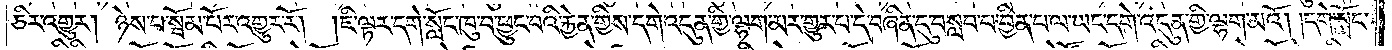ཅིར་འགྱུར། ཉེས་པ་སྦོམ་པོར་འགྱུར་རོ། །ཇི་ལྟར་དགེ་སློང་ཁུ་བ་ཕྱུང་བའི་རྐྱེན་གྱིས་དགེ་འདུན་གྱི་ལྷག་མར་གྱུར་པ་དེ་བཞིན་དུ་བསླབ་པ་བྱིན་པ་ལ་ཡང་དགེ་འདུན་གྱི་ལྷག་མའོ། །དགེ་སློང་
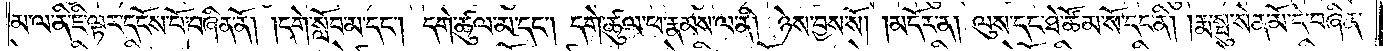མ་ལ་ནི་ཇི་ལྟར་དངོས་པོ་བཞིན་ནོ། །དགེ་སློབ་མ་དང༌། དགེ་ཚུལ་མ་དང༌། དགེ་ཚུལ་ཕ་རྣམས་ལ་ནི། ཉེས་བྱས་སོ།    །མདོར་ན། ལུས་དང་ཐེ་ཚོམ་སོ་དང་ནི། །རྨ་སྤུ་སེན་མོ་དེ་བཞིན་
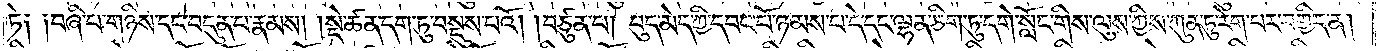ཏེ༑ ༑བཞི་པ་གཉིས་དང་བདུན་པ་རྣམས། །སྡེ་ཚན་དག་ཏུ་བསྡུས་པའོ། །བཙུན་པ། བུད་མེད་ཀྱི་དབང་པོ་ཉམས་པ་དེ་དང་ལྷན་ཅིག་ཏུ་དགེ་སློང་གིས་ལུས་ཀྱིས་ཀུན་ཏུ་རེག་པར་བགྱིད་ན།
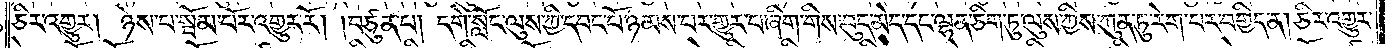ཅིར་འགྱུར། ཉེས་པ་སྦོམ་པོར་འགྱུར་རོ། །བཙུན་པ། དགེ་སློང་ལུས་ཀྱི་དབང་པོ་ཉམས་པར་གྱུར་པ་ཞིག་གིས་བུད་མེད་དང་ལྷན་ཅིག་ཏུ་ལུས་ཀྱིས་ཀུན་ཏུ་རེག་པར་བགྱིད་ན། ཅིར་འགྱུར་
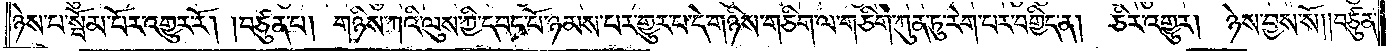ཉེས་པ་སྦོམ་པོར་འགྱུར་རོ། །བཙུན་པ། གཉིས་ཀའི་ལུས་ཀྱི་དབང་པོ་ཉམས་པར་གྱུར་པ་དེ་གཉིས་གཅིག་ལ་གཅིག་ཀུན་ཏུ་རེག་པར་བགྱིད་ན། ཅིར་འགྱུར། ཉེས་བྱས་སོ། །བཙུན་
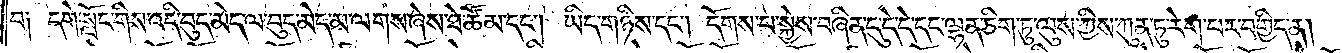པ༑ དགེ་སློང་གིས་འདི་བུད་མེད་ལ་བུད་མེད་མ་ལགས་ཞེས་ཐེ་ཚོམ་དང༌། ཡིད་གཉིས་དང༌། དོགས་པ་སྐྱེས་བཞིན་དུ་དེ་དེ་དང་ལྷན་ཅིག་ཏུ་ལུས་ཀྱིས་ཀུན་ཏུ་རེག་པར་བགྱིད་ན། ཅིར་
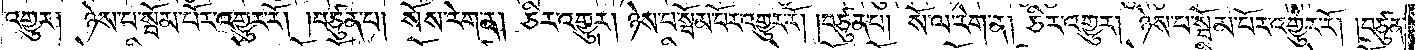འགྱུར། ཉེས་པ་སྦོམ་པོར་འགྱུར་རོ། །བཙུན་པ། སོས་རེག་ན། ཅིར་འགྱུར། ཉེས་པ་སྦོམ་པོར་འགྱུར་རོ། །བཙུན་པ། སོ་ལ་རེག་ན། ཅིར་འགྱུར། ཉེས་པ་སྦོམ་པོར་འགྱུར་རོ། །བཙུན་
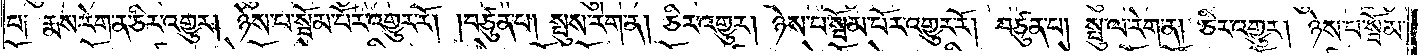པ༑ རྨས་རེག་ན་ཅིར་འགྱུར། ཉེས་པ་སྦོམ་པོར་འགྱུར་རོ། །བཙུན་པ། སྤུས་རེག་ན། ཅིར་འགྱུར། ཉེས་པ་སྦོམ་པོར་འགྱུར་རོ། །བཙུན་པ། སྤུ་ལ་རེག་ན། ཅིར་འགྱུར། ཉེས་པ་སྦོམ་
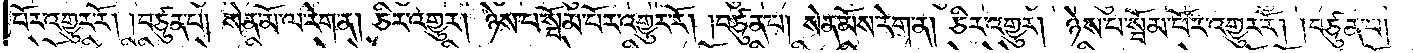པོར་འགྱུར་རོ། །བཙུན་པ། སེན་མོ་ལ་རེག་ན། ཅིར་འགྱུར། ཉེས་པ་སྦོམ་པོར་འགྱུར་རོ། །བཙུན་པ། སེན་མོས་རེག་ན། ཅིར་འགྱུར། ཉེས་པ་སྦོམ་པོར་འགྱུར་རོ། །བཙུན་པ།
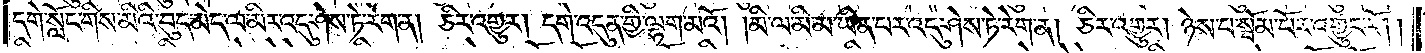དགེ་སློང་གིས་མིའི་བུད་མེད་ལ་མིར་འདུ་ཤེས་ཏེ་རེག་ན། ཅིར་འགྱུར། དགེ་འདུན་གྱི་ལྷག་མའོ། །མི་ལ་མི་མ་ཡིན་པར་འདུ་ཤེས་ཏེ་རེག་ན། ཅིར་འགྱུར། ཉེས་པ་སྦོམ་པོར་འགྱུར་རོ། །
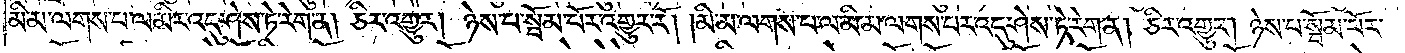མི་མ་ལགས་པ་ལ་མིར་འདུ་ཤེས་ཏེ་རེག་ན། ཅིར་འགྱུར། ཉེས་པ་སྦོམ་པོར་འགྱུར་རོ། །མི་མ་ལགས་པ་ལ་མི་མ་ལགས་པར་འདུ་ཤེས་ཏེ་རེག་ན། ཅིར་འགྱུར། ཉེས་པ་སྦོམ་པོར་
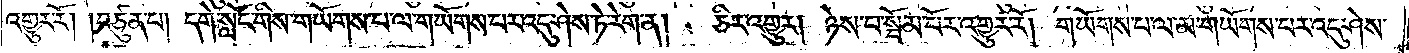འགྱུར་རོ། །བཙུན་པ། དགེ་སློང་གིས་གཡོགས་པ་ལ་གཡོགས་པར་འདུ་ཤེས་ཏེ་རེག་ན།   ཅིར་འགྱུར། ཉེས་པ་སྦོམ་པོར་འགྱུར་རོ། །གཡོགས་པ་ལ་མ་གཡོགས་པར་འདུ་ཤེས་
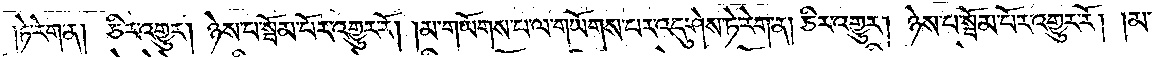ཏེ་རེག་ན། ཅིར་འགྱུར། ཉེས་པ་སྦོམ་པོར་འགྱུར་རོ། །མ་གཡོགས་པ་ལ་གཡོགས་པར་འདུ་ཤེས་ཏེ་རེག་ན། ཅིར་འགྱུར། ཉེས་པ་སྦོམ་པོར་འགྱུར་རོ། །མ་
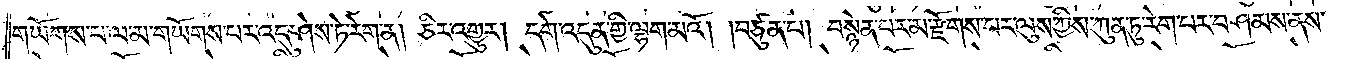གཡོགས་པ་ལ་མ་གཡོགས་པར་འདུ་ཤེས་ཏེ་རེག་ན། ཅིར་འགྱུར། དགེ་འདུན་གྱི་ལྷག་མའོ། །བཙུན་པ། བསྙེན་པར་མ་རྫོགས་པར་ལུས་ཀྱིས་ཀུན་ཏུ་རེག་པར་བཤམས་ནས་
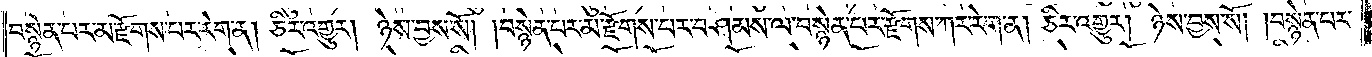བསྙེན་པར་མ་རྫོགས་པར་རེག་ན། ཅིར་འགྱུར། ཉེས་བྱས་སོ། །བསྙེན་པར་མ་རྫོགས་པར་བཤམས་ལ་བསྙེན་པར་རྫོགས་ཀར་རེག་ན། ཅིར་འགྱུར། ཉེས་བྱས་སོ། །བསྙེན་པར་
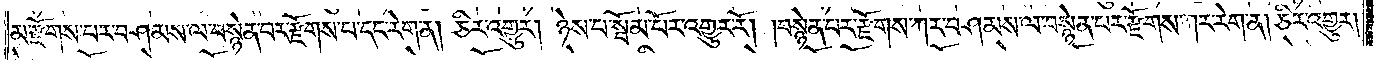མ་རྫོགས་པར་བཤམས་ལ་བསྙེན་པར་རྫོགས་པ་དང་རེག་ན། ཅིར་འགྱུར། ཉེས་པ་སྦོམ་པོར་འགྱུར་རོ། །བསྙེན་པར་རྫོགས་ཀར་བཤམས་ལ་བསྙེན་པར་རྫོགས་ཀར་རེག་ན། ཅིར་འགྱུར།
